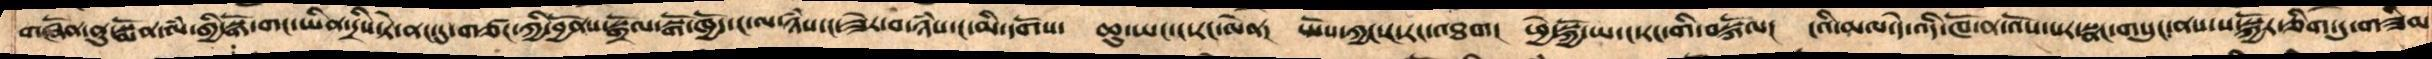གཞོན་ནུ་སྨོན་ལཾ་གྱི་སྒོ་གང་ཡིན་དྲིས་ཏེ་ནང་དུ་གཙང་ཀྱི་བྱོནས་སྒྲོལ་སྒོ་ཁྱོད་ང་ལ་ཉཾས་ང་ཟེར་བ་ཉཾས་ང་མི་དགོས།  ཆུ་ཡང་ང་རང་ལེན།   ཡོས་ཀྱང་ང་རང་འཐག།  ཕྱེ་སྐྱོ་ཡ་ང་རང་གི་བསྐོལ།  ངའི་མལ་དེ་འདི་ཁོ་ནར་འོས་པར་སྣང་གསུང་ནས་ས་སྐྱོར་ཅིག་དུ་གཟིམ
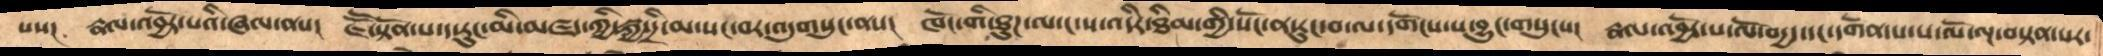པས།  རྣལ་འབྱོར་པའི་ཞལ་ནས།  ཇཽ་སྟོན་པ་ད་རུང་མི་མཛད་ཀྱི་སྐྱ་དྲི་མ་སང་བར་འདུགསུང་ནས།  ཁོང་གི་ཐུཌ་ལ་ང་ས་འདིར་ཐིམ་གྱི་སོང་ན་རུང་བ་ལ་དགོངས་པ་བྱུང་གསུངས།  རྣལ་འབྱོར་པ་ལོ་བདྱད་དང་དགོན་པ་པ་ལོ་ལྔ་བསྟན་པར་
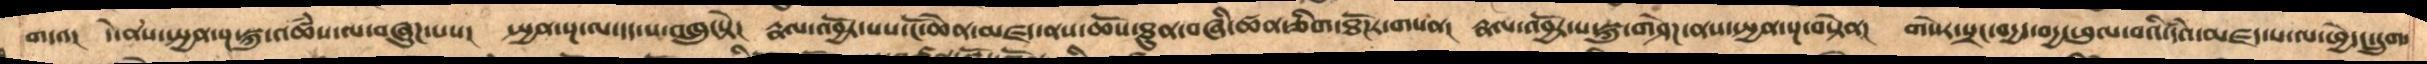གདའ།  དེ་ནས་སྤྱན་སྔ་སྐུ་འཚཾས་ལ་བཞུཌ་པས།   སྤྱན་སྔ་ལ་དད་པ་འཁྲུངསྟེ།  རྣལ་འབྱོར་པས་ངོ་ཆེན་མཛད་ནས་ཆོས་ཐུན་བཞི་ཚན་ཅིག་ཐོཌར་གསན།  རྣལ་འབྱོར་པ་སྐུ་གཤེཌ་ནས་སྤྱན་སྔ་བསྟེན།  གསེར་སྲང་བདྱད་བདྱ་ཕུལ་བའི་དཾའ་མཛད་པ་ལ་ཕྱེ་ང་དྲུག་
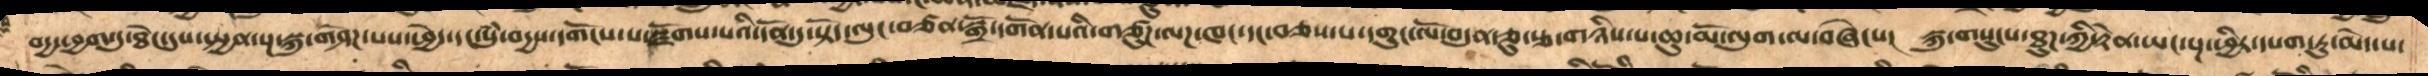བདྱ་ཕྱག་དུ་ཐེང་དུས་སྤྱན་སྔ་སྐུ་གཤེཌ་པས་ཕྱེད་དང་སུཾ་བདྱས་དགོངས་པ་སྫོགས་པའི་དོན་དུ་སྟོད་ལུང་བཙན་སྒྲོ་དགོན་པའི་གཙུཌ་ལཌ་ཁང་དང་བཅས་པ་དགུང་ལོ་བདུན་ཅུ་རྩ་གཉིས་པ་ཆུ་མོ་ལུག་ལ་བཞེངས།  སྐུ་གསུངས་ཐུཌ་ཀྱི་རྟེན་ཡང་སྔ་ཕྱི་དཔག་ཏུ་མེད་པ་
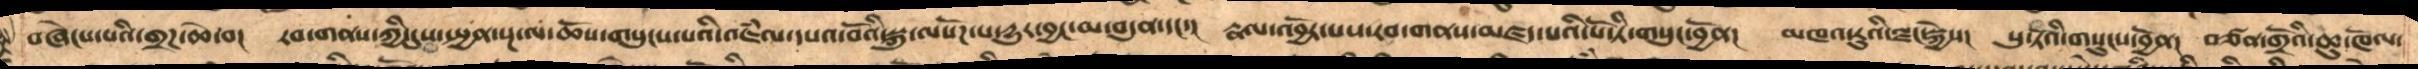བཞེངས་པའི་གྲཌ་ཆེ་བ།  རབ་གནས་ཀྱི་དུས་སྤྱན་སྔ་ལ་ཆོས་གསུངས་པའི་འཇཾལ་དཔའ་བོའི་སྐུ་ལསོཌ་པ་དྱུར་བྱང་མ་བདུན་དང་།  རྣལ་འབྱོར་པས་རབ་གནས་མཛད་པའི་པོ་ཏི་གསུང་བྱོན།  མཁའ་རུའི་ལྗང་སྐྱེས།  པུ་ཏོའི་གསུངས་བྱོན།  བཙན་གྲོའི་ཆུ་ཁོལ་
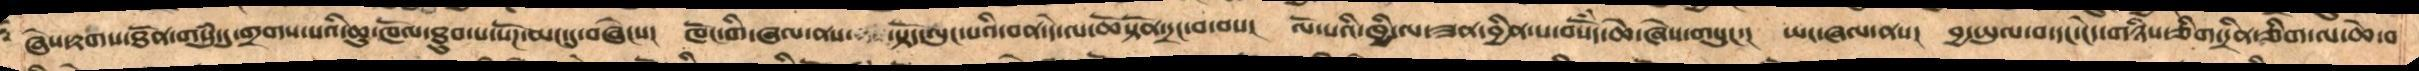ཞེས་རྟགས་ཐོན་གསུཾ་དུ་གྲགས་པའི་ཆུ་ཁོལ་ཐུབ་པ་སོཌ་མང་དུ་བཞེངས།  ཁོང་གི་ཞལ་ནས།  སྟོད་ལུང་པའི་བན་དེ་ལ་ཆོསྟོན་དྲང་བ་བས།   ལོ་པའི་ཁྱི་ལ་ཟན་བྱིན་པ་བསོཾད་ཆེ་ཞེས་གསུང་།  ཡང་ཞལ་ནས།  བྱ་ཡུལ་བ་དང་ངེད་གཉིས་ཅིག་དྲིན་ཅིག་ལ་ཆེ་བ
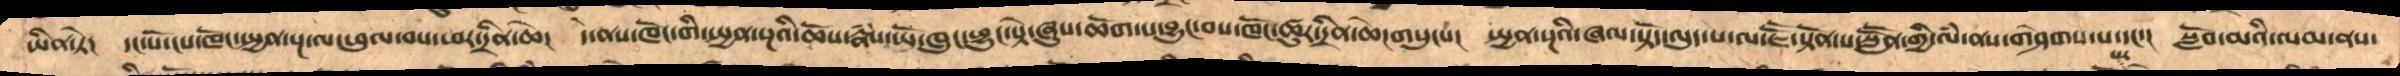ཡིན་ཏེ།  དང་པོ་ངས་ཁོང་སྤྱན་སྔ་ལ་ཕུལ་བས་ཕར་དྲིན་ཆེ།  དེ་ནས་ཁོང་གི་སྤྱན་སྔའི་ཆོས་རྣཾས་ཡོ་ཁུང་ཕྱུང་སྟེ་ཞུས་ཆོག་པ་བྱུང་བས་ཁོང་ཚུར་དྲིན་ཆེངགསུངས།  སྤྱན་སྔའི་ཞལ་སྟོད་ལུང་པ་ལ་ཇཽ་སྟོན་པ་སླཽན་གྱི་ལཾ་ནས་གཤེགས་པ་དང།  སློབ་མའི་ལམ་ནས་
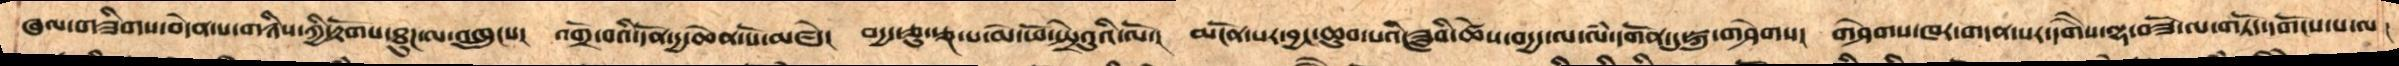ཞལ་གཟིགས་བདེན་པ་གཉིས་ཀྱི་རྟོགས་ཐུཌ་ལ་འཁྲུངས།  འགྲོ་བའི་དོན་དྱ་ཆེན་པོ་མཛདེ།  བདྱད་ཅུ་རྩྔ་པ་མེ་ཕོ་སྤྲེའུའི་ལོ་།  མངོན་པར་བྱང་ཆུབ་པའི་ཟླབི་ཚེས་བདྱད་ལ་ལཾ་དགོན་དུ་སྐུ་གཤེགས།  གཤེགས་ཁར་གདན་སར་དགཻས་ལྷ་བཟོ་ལ་གཏོད་དགོངས་པ་ལ།
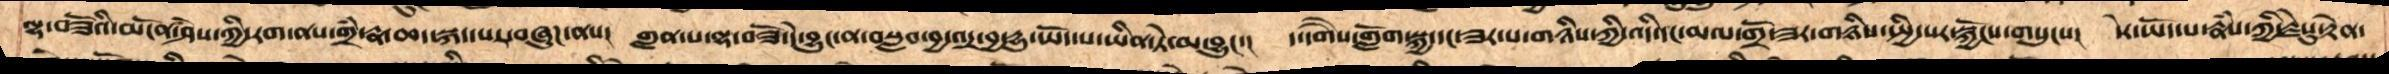ལྷ་བཟོའི་མངོན་ཤེས་ཀྱི་རག་ནས་གྲཾ་རྣ་ཆད་སྐད་པར་བཞུཌ་ནས།   གླན་པ་ལྷ་བཟོ་དེ་བྱུང་ན་བསླབ་བྱ་འདྲ་བྱ་དྱུ་ཡོད་པ་ཡིན་ཏེ་མ་བྱུང་།  ད་དགཻས་གློག་སྐྱ་དང་ཟར་པ་གཉིས་ཀྱི་འདི་དང་མལ་གྲོ་ཟར་གཉིས་སྤྱི་སར་སྐྱོངས་གསུངས།  དེར་ཡོད་པ་རྣཾས་ཀྱི་རྗེསུ་རྟེན་
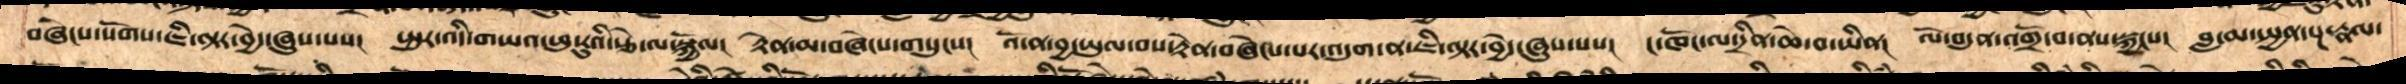བཞེངས་སོགས་ཇི་ལྟར་བྱེད་ཞུས་པས།  སྤུར་འདི་གཡའ་ཕུ་རུའི་རྩེ་ལ་སྐྱོལ།  རྟེན་མ་བཞེངས་གསུངས།  འོ་ན་བྱ་ཡུལ་བས་རྟེན་བཞེངས་པར་འདུག་ན་ཇི་ལྟར་བྱེད་ཞུས་པས།  ང་ཁོང་ལ་དྲིན་ཆེ་བ་ཡིན།  ལོ་བདུན་འགྲོ་བ་ནས་སྐྱངས།  བླ་མ་སྤྱན་སྔ་རྣལ་
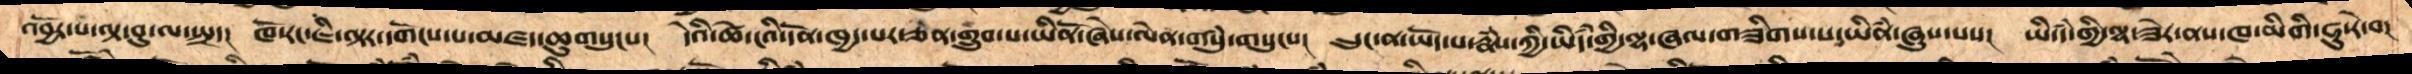འབྱོར་པ་ལྟ་བུ་ལ་སྤྲད།  ཁོ་རང་ཇི་ལྟར་དགོངས་པ་མཛད་ཆུགསུངས།   དེའི་ཚེ་ངའི་དོན་ཁྱད་པར་ཅན་གྲུབ་པ་ཡིནོ་ཞེས་ལེན་གསུཾ་གསུངས།  དྲུང་ན་ཡོད་པ་རྣཾས་ཀྱི་ཡི་དཾ་གྱི་ལྷ་ཞལ་གཟིགས་པ་ཡིནཾ་ཞུས་པས།  ཡི་དཾ་གྱི་ལྷ་ཟེར་ནས་ཁ་མིགི་ཧུ་རེ་བ།
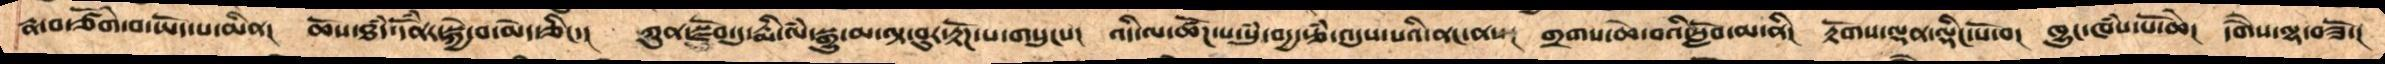རྣ་བ་ཙོགེ་བ་ཡོད་པ་མིན།  ཆོས་ཐཾད་དོཾནར་སྐྱེ་བ་མེད་ཅིང་།  ཀུན་སྫོབ་དུ་རྨི་ལཾ་སྒྱུ་མ་ལྟ་བུར་རྟོཌ་པ་གསུངས།  འདི་ལ་ཚོཌ་པ་སུཾ་བདྱ་ཙཾ་འདུས་པའི་ནང་ནས།  གྲགས་ཆེ་བའི་སློབ་མ་ནི།  རྟོགས་ལྡན་ལྡིང་པོ་བ།  ཁྱུང་ཁཾས་པོ་ཆེ། དགཻས་ལྷ་བཟོ་།
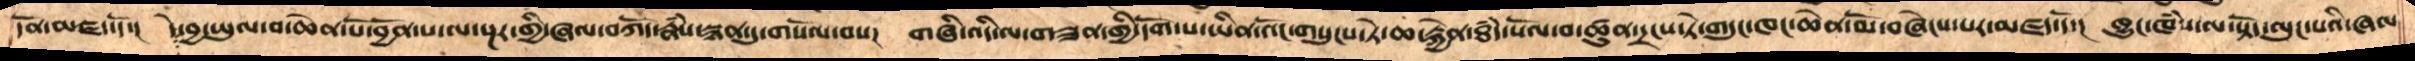དོན་མཛད་དོ་།   དེ་བྱ་ཡུལ་བ་ཆེན་པོ་བྱོན་པ་ལ་སྔར་གྱི་ཞལ་བཀོད་རྣཾས་སྙན་དུ་གསོལ་བས།  གཞི་འདི་ལ་གཟན་གྱི་དོག་པ་ཡིན་འོང་གསུངས་ཏེ་ཆ་རྐྱེན་ཐཾད་སོལ་བ་ཚུན་དྲངས་ཏེ་གདུང་ཁང་ཆེན་མོ་བཞེངས་པར་མཛད་དོ།   ཁྱུང་ཁཾས་ལ་སྟོད་ལུང་པའི་ཞལ
